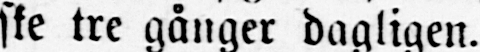ske tre gånger dagligen.
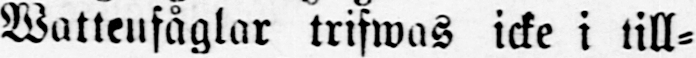Wattenfåglar trifwas icke i till-
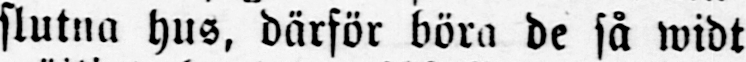slutna hus, därför böra de så widt
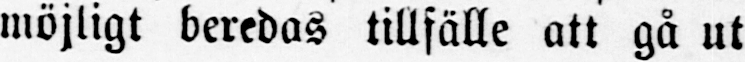möjligt beredas tillfälle att gå ut
